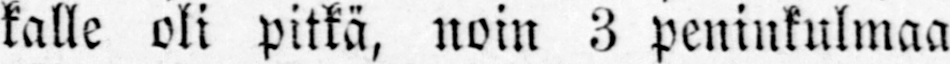kalle oli pitkä, noin 3 peninkulmaa,
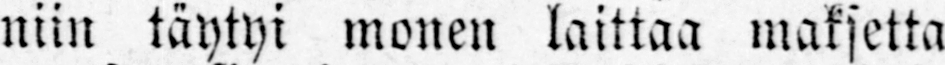niin täytyi monen laittaa maksetta-
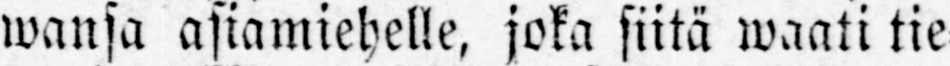wansa asiamiehelle, joka siitä waati tie-
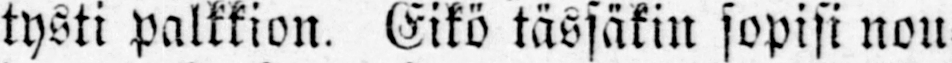tysti palkkion. Eikö tässäkin sopisi nou-
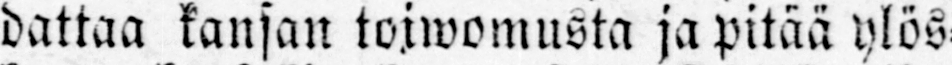dattaa kansan toiwomusta ja pitää ylös-
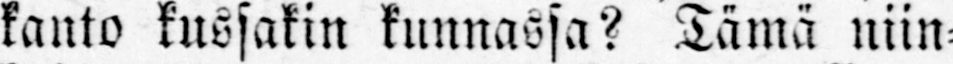kanto kussakin kunnassa? Tämä niin-
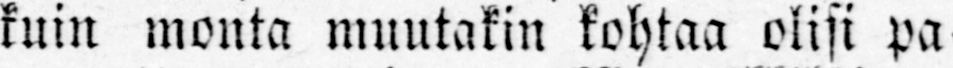kuin monta muutakin kohtaa olisi pa-
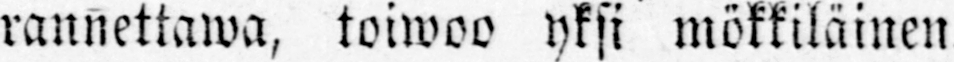rannettawa, toiwoo yksi mökkiläinen.
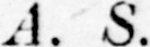A. S.
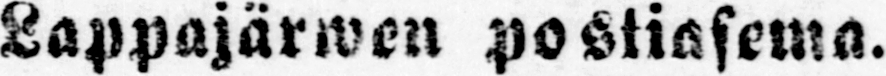Lappajärwen postiasema.
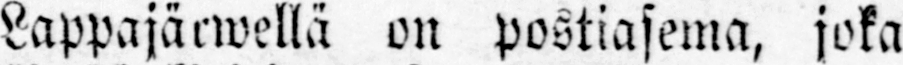Lappajärwellä on postiasema, joka
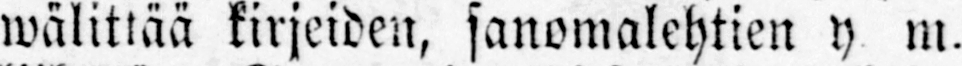wälittää kirjeiden, sanomalehtien y. m.
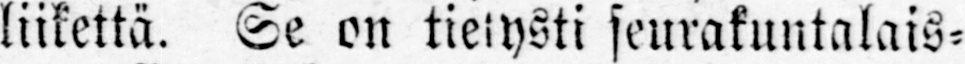liikettä. Se on tietysti seurakuntalais-
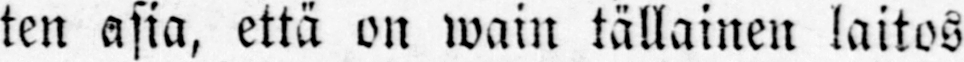ten asia, että on wain tällainen laitos
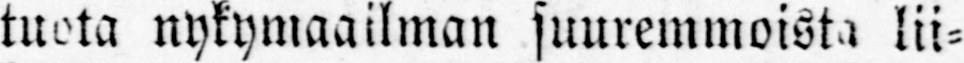tuota nykymaailman suuremmoista lii-
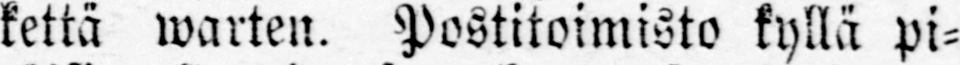kettä warten. Postitoimisto kyllä pi-
